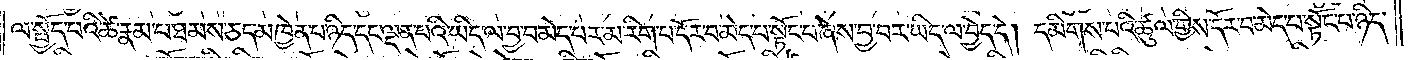ལ་སྤྱོད་པའི་ཚེ་རྣམ་པ་ཐམས་ཅད་མཁྱེན་པ་ཉིད་དང་ལྡན་པའི་ཡིད་ལ་བྱ་བ་མེད་པར་མ་རིག་པ་དོར་བ་མེད་པ་སྟོང་པ་ཞེས་བྱ་བར་ཡིད་ལ་བྱེད་དེ། དམིགས་པའི་ཚུལ་གྱིས་དོར་བ་མེད་པ་སྟོང་པ་ཉིད་
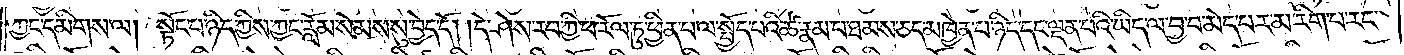ཀྱང་དམིགས་ལ། སྟོང་པ་ཉིད་ཀྱིས་ཀྱང་རློམ་སེམས་སུ་བྱེད་དོ། །དེ་ཤེས་རབ་ཀྱི་ཕ་རོལ་ཏུ་ཕྱིན་པ་ལ་སྤྱོད་པའི་ཚེ་རྣམ་པ་ཐམས་ཅད་མཁྱེན་པ་ཉིད་དང་ལྡན་པའི་ཡིད་ལ་བྱ་བ་མེད་པར་མ་རིག་པ་རང་
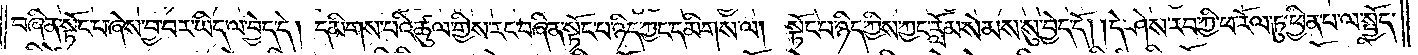བཞིན་སྟོང་པ་ཞེས་བྱ་བར་ཡིད་ལ་བྱེད་དེ། དམིགས་པའི་ཚུལ་གྱིས་རང་བཞིན་སྟོང་པ་ཉིད་ཀྱང་དམིགས་ལ། སྟོང་པ་ཉིད་ཀྱིས་ཀྱང་རློམ་སེམས་སུ་བྱེད་དོ། །དེ་ཤེས་རབ་ཀྱི་ཕ་རོལ་ཏུ་ཕྱིན་པ་ལ་སྤྱོད་
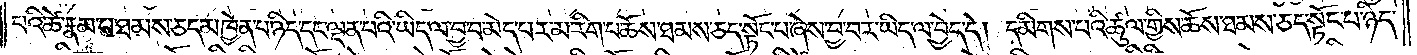པའི་ཚེ་རྣམ་པ་ཐམས་ཅད་མཁྱེན་པ་ཉིད་དང་ལྡན་པའི་ཡིད་ལ་བྱ་བ་མེད་པར་མ་རིག་པ་ཆོས་ཐམས་ཅད་སྟོང་པ་ཞེས་བྱ་བར་ཡིད་ལ་བྱེད་དེ། དམིགས་པའི་ཚུལ་གྱིས་ཆོས་ཐམས་ཅད་སྟོང་པ་ཉིད་
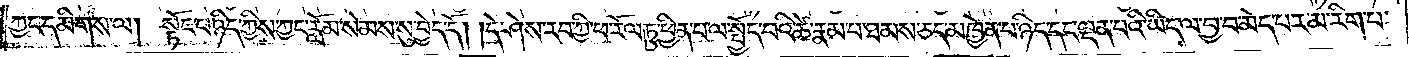ཀྱང་དམིགས་ལ། སྟོང་པ་ཉིད་ཀྱིས་ཀྱང་རློམ་སེམས་སུ་བྱེད་དོ། །དེ་ཤེས་རབ་ཀྱི་ཕ་རོལ་ཏུ་ཕྱིན་པ་ལ་སྤྱོད་པའི་ཚེ་རྣམ་པ་ཐམས་ཅད་མཁྱེན་པ་ཉིད་དང་ལྡན་པའི་ཡིད་ལ་བྱ་བ་མེད་པར་མ་རིག་པ་
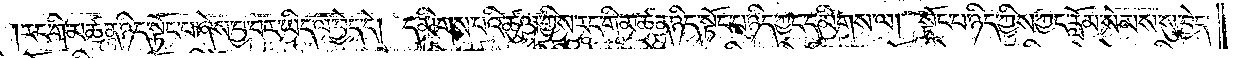རང་གི་མཚན་ཉིད་སྟོང་པ་ཞེས་བྱ་བར་ཡིད་ལ་བྱེད་དེ། དམིགས་པའི་ཚུལ་གྱིས་རང་གི་མཚན་ཉིད་སྟོང་པ་ཉིད་ཀྱང་དམིགས་ལ། སྟོང་པ་ཉིད་ཀྱིས་ཀྱང་རློམ་སེམས་སུ་བྱེད་
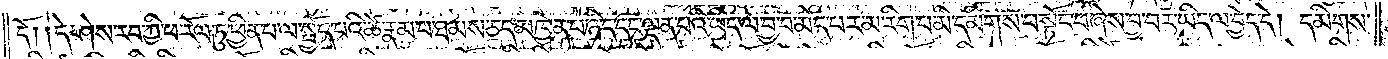དོ། །དེ་ཤེས་རབ་ཀྱི་ཕ་རོལ་ཏུ་ཕྱིན་པ་ལ་སྤྱོད་པའི་ཚེ་རྣམ་པ་ཐམས་ཅད་མཁྱེན་པ་ཉིད་དང་ལྡན་པའི་ཡིད་ལ་བྱ་བ་མེད་པར་མ་རིག་པ་མི་དམིགས་པ་སྟོང་པ་ཞེས་བྱ་བར་ཡིད་ལ་བྱེད་དེ། དམིགས་
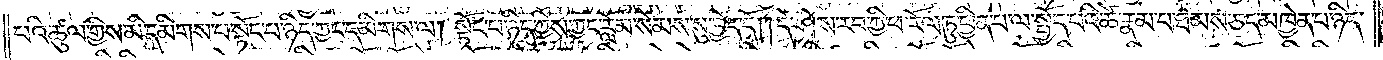པའི་ཚུལ་གྱིས་མི་དམིགས་པ་སྟོང་པ་ཉིད་ཀྱང་དམིགས་ལ། སྟོང་པ་ཉིད་ཀྱིས་ཀྱང་རློམ་སེམས་སུ་བྱེད་དོ། །དེ་ཤེས་རབ་ཀྱི་ཕ་རོལ་ཏུ་ཕྱིན་པ་ལ་སྤྱོད་པའི་ཚེ་རྣམ་པ་ཐམས་ཅད་མཁྱེན་པ་ཉིད་
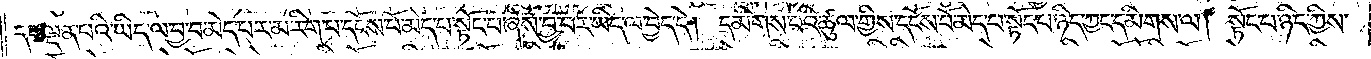དང་ལྡན་པའི་ཡིད་ལ་བྱ་བ་མེད་པར་མ་རིག་པ་དངོས་པོ་མེད་པ་སྟོང་པ་ཞེས་བྱ་བར་ཡིད་ལ་བྱེད་དེ། དམིགས་པའི་ཚུལ་གྱིས་དངོས་པོ་མེད་པ་སྟོང་པ་ཉིད་ཀྱང་དམིགས་ལ། སྟོང་པ་ཉིད་ཀྱིས་
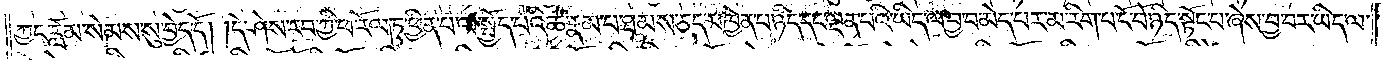ཀྱང་རློམ་སེམས་སུ་བྱེད་དོ། །དེ་ཤེས་རབ་ཀྱི་ཕ་རོལ་ཏུ་ཕྱིན་པ་ལ་སྤྱོད་པའི་ཚེ་རྣམ་པ་ཐམས་ཅད་མཁྱེན་པ་ཉིད་དང་ལྡན་པའི་ཡིད་ལ་བྱ་བ་མེད་པར་མ་རིག་པ་ངོ་བོ་ཉིད་སྟོང་པ་ཞེས་བྱ་བར་ཡིད་ལ་
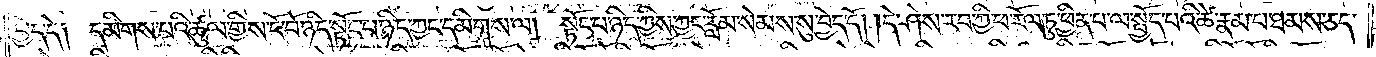བྱེད་དེ༑ དམིགས་པའི་ཚུལ་གྱིས་ངོ་བོ་ཉིད་སྟོང་པ་ཉིད་ཀྱང་དམིགས་ལ། སྟོང་པ་ཉིད་ཀྱིས་ཀྱང་རློམ་སེམས་སུ་བྱེད་དོ། །དེ་ཤེས་རབ་ཀྱི་ཕ་རོལ་ཏུ་ཕྱིན་པ་ལ་སྤྱོད་པའི་ཚེ་རྣམ་པ་ཐམས་ཅད་
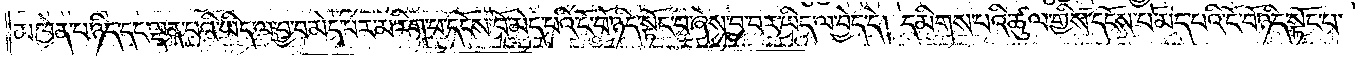མཁྱེན་པ་ཉིད་དང་ལྡན་པའི་ཡིད་ལ་བྱ་བ་མེད་པར་མ་རིག་པ་དངོས་པོ་མེད་པའི་ངོ་བོ་ཉིད་སྟོང་པ་ཞེས་བྱ་བར་ཡིད་ལ་བྱེད་དེ། དམིགས་པའི་ཚུལ་གྱིས་དངོས་པོ་མེད་པའི་ངོ་བོ་ཉིད་སྟོང་པ་
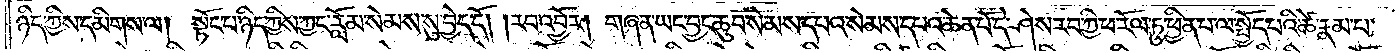ཉིད་ཀྱིས་དམིགས་ལ། སྟོང་པ་ཉིད་ཀྱིས་ཀྱང་རློམ་སེམས་སུ་བྱེད་དོ། །རབ་འབྱོར། གཞན་ཡང་བྱང་ཆུབ་སེམས་དཔའ་སེམས་དཔའ་ཆེན་པོ་དེ་ཤེས་རབ་ཀྱི་ཕ་རོལ་ཏུ་ཕྱིན་པ་ལ་སྤྱོད་པའི་ཚེ་རྣམ་པ་
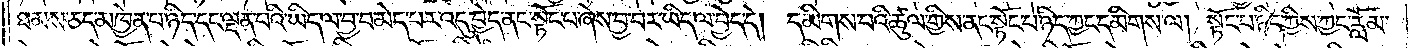ཐམས་ཅད་མཁྱེན་པ་ཉིད་དང་ལྡན་པའི་ཡིད་ལ་བྱ་བ་མེད་པར་འདུ་བྱེད་ནང་སྟོང་པ་ཞེས་བྱ་བར་ཡིད་ལ་བྱེད་དེ། དམིགས་པའི་ཚུལ་གྱིས་ནང་སྟོང་པ་ཉིད་ཀྱང་དམིགས་ལ། སྟོང་པ་ཉིད་ཀྱིས་ཀྱང་རློམ་
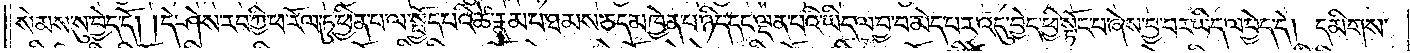སེམས་སུ་བྱེད་དོ། །དེ་ཤེས་རབ་ཀྱི་ཕ་རོལ་ཏུ་ཕྱིན་པ་ལ་སྤྱོད་པའི་ཚེ་རྣམ་པ་ཐམས་ཅད་མཁྱེན་པ་ཉིད་དང་ལྡན་པའི་ཡིད་ལ་བྱ་བ་མེད་པར་འདུ་བྱེད་ཕྱི་སྟོང་པ་ཞེས་བྱ་བར་ཡིད་ལ་བྱེད་དེ། དམིགས་
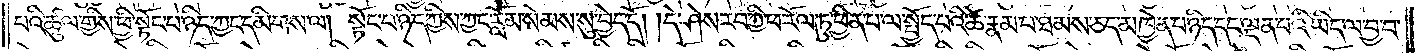པའི་ཚུལ་གྱིས་ཕྱི་སྟོང་པ་ཉིད་ཀྱང་དམིགས་ལ། སྟོང་པ་ཉིད་ཀྱིས་ཀྱང་རློམ་སེམས་སུ་བྱེད་དོ། །དེ་ཤེས་རབ་ཀྱི་ཕ་རོལ་ཏུ་ཕྱིན་པ་ལ་སྤྱོད་པའི་ཚེ་རྣམས་ཐམས་ཅད་མཁྱེན་པ་ཉིད་དང་ལྡན་པའི་ཡིད་ལ་བྱ་བ་
